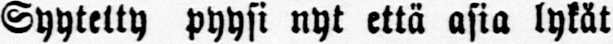Syytetty pyysi nyt että asia lykät
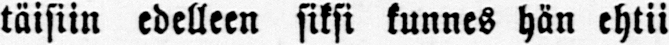täisiin edelleen siksi kunnes hän ehtii
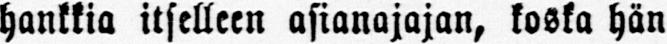hankkia itselleen asianajajan, koska hän
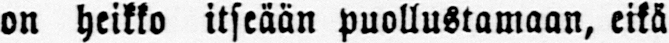on heikko itseään puollustamaan, eikä
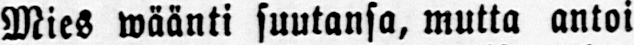Mies wäänti suutansa, mutta antoi
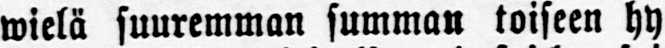wielä suuremman summan toiseen hy-
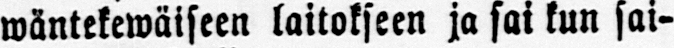wäntekewäiseen laitokseen ja sai kun sai-
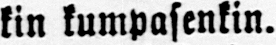kin kumpasenkin.
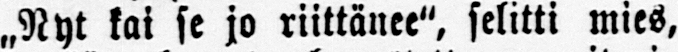„Nyt kai se jo riittänee", selitti mies,
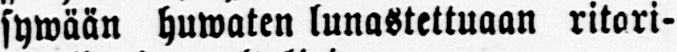sywään huwaten lunastettuaan ritari-
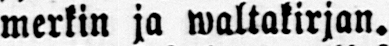merkin ja waltakirjan.
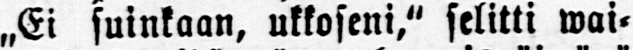„Ei suinkaan, ukkoseni," selitti wai-
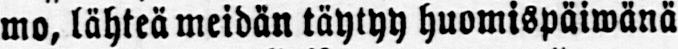mo, lähteä meidän täytyy huomispäiwänä
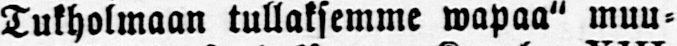Tukholmaan tullaksemme wapaa" muu-
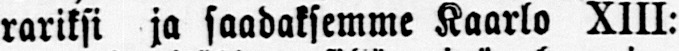rariksi ja saadaksemme Kaarlo XIII:
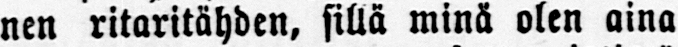nen ritaritähden, sillä minä olen aina
